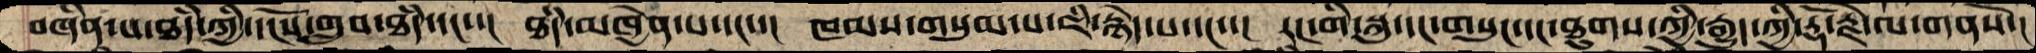བཞིན་པ་ཐདཾ་ཀྱི་དངོས་གྲུབ་ཐདཾ་དང་་།  ཐདཾ་མཁྱེན་པ་དང་་།  ཁམས་གསུམ་པ་ཇི་རྙེད་པ་དང་་།  རང་གི་སྐུ་དང་གསུང་དང་ཐུགས་ཀྱི་རྒྱུད་ཀྱི་རྡོ་རྗེ་ལ་གནསོ་།
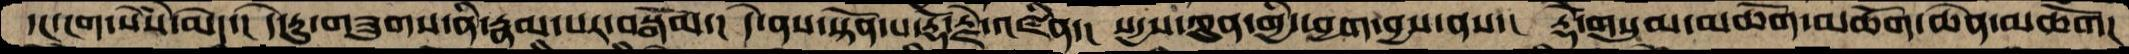དང་ངག་སེཾས་མེད་།  དེ་རུ་གཟུགས་ནི་རྣམ་པར་བསྒོམ་།  དེ་ནས་སྟོན་པ་རྡོ་རྗེ་འཛིན་།  སདྱས་ཀུན་གྱི་ཕྱག་བྱས་ནས་།  རྡོེ་གསུམ་མཆོག་མཆོག་ཆེན་མཆོག།
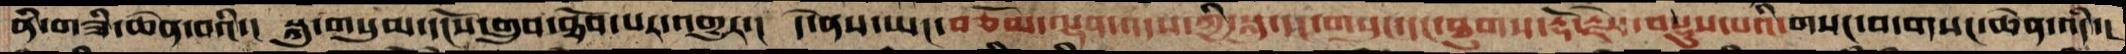ནི་གཟི་ཆེན་བའི་།   སྐུ་གསུམ་དངོས་གྲུབ་ཐོབ་པར་འགྱུར་།  དེ་ནས་ཡང་བཅོམ་ལྡན་འདས་ཀྱི་སྐུ་དང་གསུང་དང་ཐུགས་རྡོ་རྗེས་བསྡུས་པའི་གསང་བ་གསང་ཆེན་འདི་།
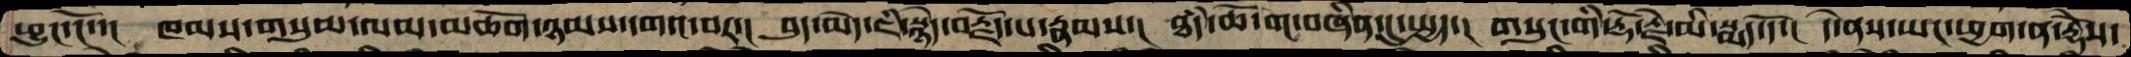ཕྱུང་ངོ་་།   ཁམས་གསུམ་ལམ་མཆོག་ཉམས་དགའ་བར་།  བུད་མེད་ཇི་སྙེད་བརྗོད་པ་རྣམས་།  ཐཾད་ཆོ་ག་བཞིན་དུ་སྤྱད་།  གསུང་གི་རྡོ་རྗེ་མི་སྨད་དོ་།  དེ་ནས་ཡང་ཕྱག་ན་རྡོེས་
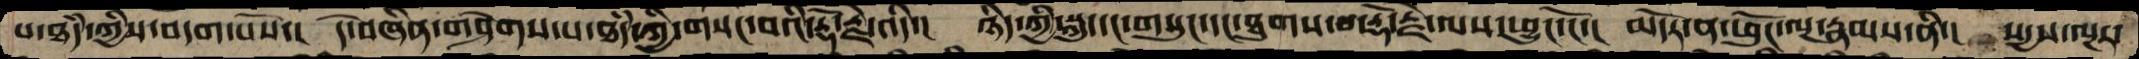པ་ཐཾད་ཀྱིས་བདག་པོས་།  དེ་བཞིན་གཤེགས་པ་ཐཾད་ཀྱི་གསང་བའི་རྡོ་རྗེ་འདི་།  ཉིད་ཀྱི་སྐུ་དང་གསུང་དང་ཐུགས་རྡོ་རྗེ་ལས་ཕྱུང་ངོ་།  མདོར་ན་ཕུངོ་ལྔ་རྣམས་ནི་།  སདྱས་ལྔར་
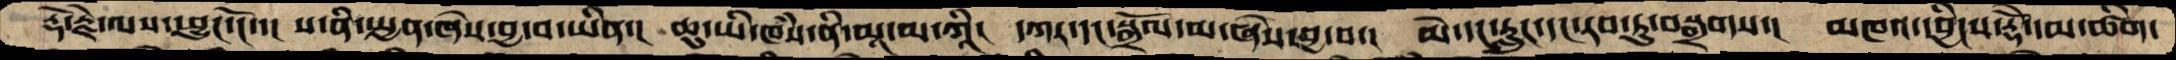རྡོ་རྗེ་ལས་ཕྱུང་ངོ་་།  ས་ནི་སྤྱན་ཞེས་བྱ་བ་ཡིན་།  ཆུ་ཡི་ཁཾས་ནི་མཱ་མ་ཀཱི།  དཀར་དང་སྒྲོལ་མ་ཞེས་བྱ་བ་།  མེ་དང་རླུང་དང་རབ་ཏུ་བསྒྲགས།  མཁའ་དབྱིངས་རྡོེ་དམ་ཚིག་
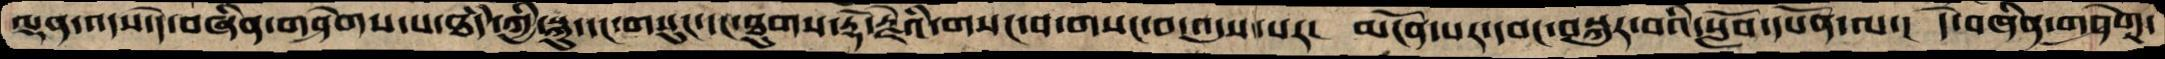ལྡན་འདས་དེ་བཞིན་གཤེགས་པ་ཐཾད་ཀྱི་སྐུ་དང་གསུང་དང་ཐུགས་རྡོ་རྗེའི་གསང་བ་གསང་བ་འདུས་པར།  མངོན་པར་དབང་བསྐུར་བའི་སློབ་དཔོན་ལ་། དེ་བཞིན་གཤེགས་
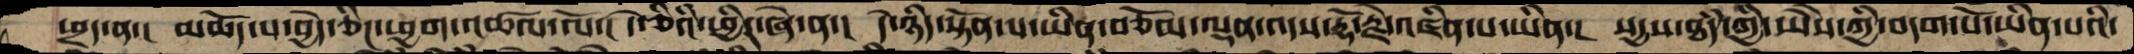ཕྲད་ན་།  མཆོད་པ་བྱེད་ཅིང་ཕྱག་འཚལ་ལོ་།  དེ་ཅིའི་ཕྱིར་ཞེ་ན་།  དེ་ཉིད་སྟོན་པ་ཡིན་བཅོམ་ལྡན་འདས་རྡོ་རྗེ་འཛིན་པ་ཡིན་།  སདྱས་ཐདཾ་གྱི་ཡཻས་ཀྱི་བདག་པོ་ཡིན་པའི་
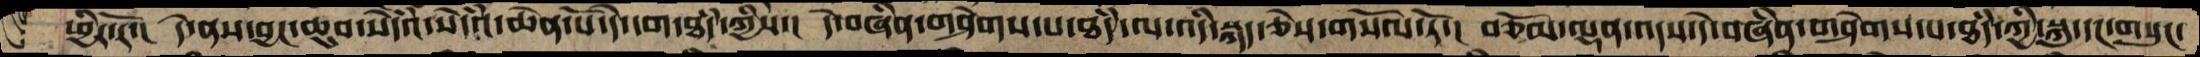ཕྱིར་རོ་། དེ་ནས་བྱང་ཆུབ་སེདའཾ་སེདའཾ་ཆེན་པོ་དེ་དག་ཐཾད་ཀྱིས་། དེ་བཞིན་གཤེགས་པ་ཐཾད་ལ་འདི་སྐད་ཅེས་གསོལ་ཏོ་། བཅོམ་ལྡན་འདས་དེ་བཞིན་གཤེགས་པ་ཐཾད་ཀྱི་སྐུ་དང་གསུང་
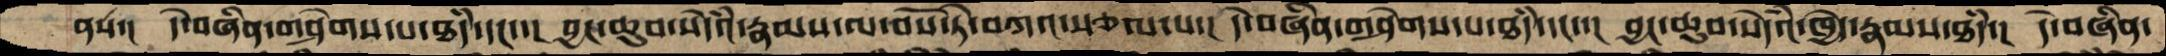ནས་།   དེ་བཞིན་གཤེགས་པ་ཐཾད་དང་་།  བྱང་ཆུབ་སེདཾའ་རྣམས་ལ་བོས་ཏེ་བཀའ་སྩལ་པ་།  དེ་བཞིན་གཤེགས་པ་ཐཾད་དང་་།  བྱང་ཆུབ་སེདཾའ་ཁྱེད་རྣམས་ཐཾད་།  དེ་བཞིན་
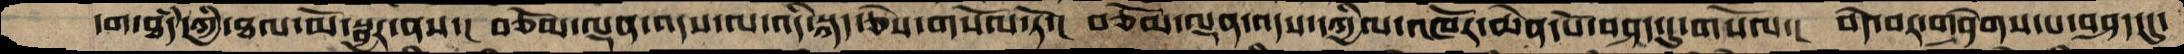དག་ཐདཾ་ཀྱི་ཐལ་མོ་སྦྱར་ནས་།  བཅོམ་ལྡན་འདས་ལ་འདི་སྐད་ཅེས་གསོལ་ཏོ་།  བཅོམ་ལྡན་འདས་དཀྱིལ་འཁོར་ཆེན་པོ་བཤད་དུ་གསོལ་།  བདེ་བར་གཤེགས་པ་བཤད་དུ་
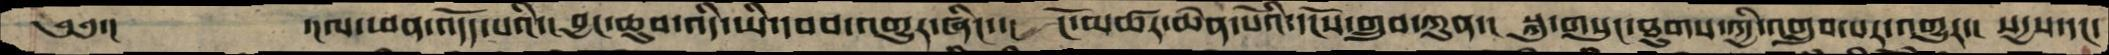༄༅་།    ་།ལ་ཕན་འདོད་པའི་བྱང་ཆུབ་འདི་ཡི་དབབ་འགྱུར་ཞིང་་།  ངོ་མཚར་ཆེན་པོའི་དངོས་གྲུབ་ཀུན་།  སྐུ་གསུང་ཐུགས་ཀྱི་འགྲུབ་པར་འགྱུར་།  སདྱས་དང་་
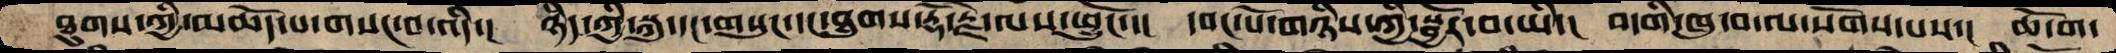ཐུགས་ཀྱི་མཆོད་པ་གསང་བ་འདི་།  ཉིད་ཀྱི་སྐུ་དང་གསུང་དང་ཐུགས་རྡོ་རྗེ་ལས་ཕྱུངོ་་།  དབང་པོ་གཉིས་ཀྱི་སྦྱོར་བ་ཡི་།  བདགི་ཁུ་བ་ལ་སོགས་པས་།  ཆོ་ག་
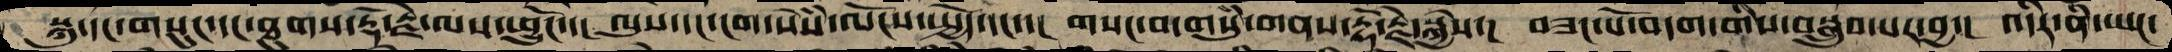སྐུ་དང་གསུང་དང་ཐུགས་རྡོ་རྗེ་ལས་ཕྱུངོ་་།  ལུས་དང་ངག་སེཾས་ལོངས་སྤྱོད་དང་་།  གསང་བ་གསུཾ་གནས་རྡོ་རྗེ་སྐྱེས་།  བཟང་པོ་བདག་གིས་བསྒྲུབ་པར་བྱ་།  འདིར་ནི་ཡང་
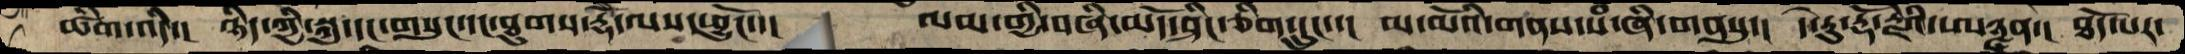ཚིག་འདི་། ཉིད་ཀྱི་སྐུ་དང་གསུང་དང་ཐུགས་རྡོེ་ལས་ཕྱུངོ་་། ལམ་གྱི་བཞི་མདོ་ཤིང་ཅིག་དྲུང་་། མ་མོའི་གནས་སཾ་ཞི་གནསུ་། དེ་རུ་རྡོ་རྗེའི་ཨཉྫན་། ཐོད་པར་
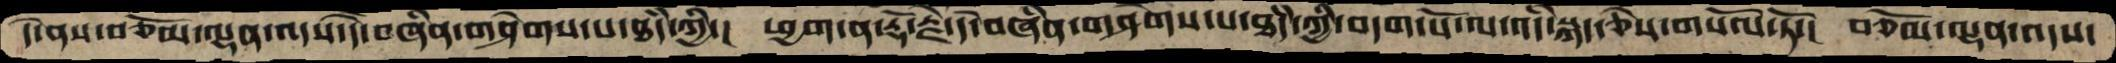དེ་ནས་བཅོམ་ལྡན་འདས་དེ་བཞིན་གཤེགས་པ་ཐཾད་ཀྱི་།  ཕྱག་ན་རྡོ་རྗེ་དེ་བཞིན་གཤེགས་པ་ཐཾད་ཀྱི་བདག་པོ་ལ་འདི་སྐད་ཅེས་གསོལ་ཏོ་།  བཅོམ་ལྡན་འདས་
